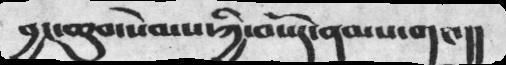བྱང་ཆུབ་སེམས་ཀྱི་བསོད་ནམས་གང་།།
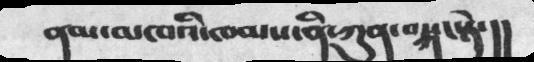ནམ་མཁའི་ཁམས་ནི་ཀུན་བསྐང་སྟེ་།།
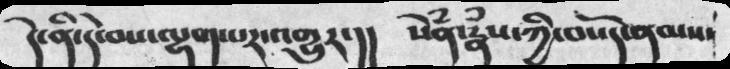དེ་ནི་དེ་བས་ལྷག་པར་འགྱུར་།།    སེཾན་རྣཾས་ཀྱི་བསོད་ནམས་
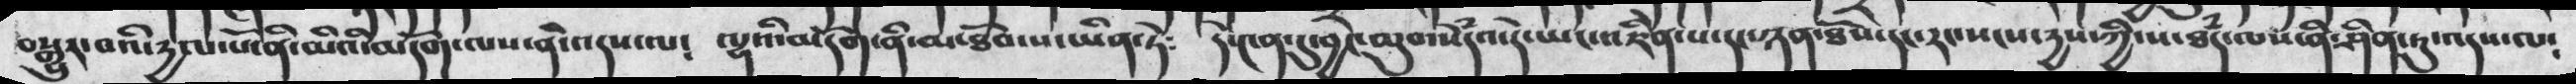བསྒྱུར་བའི་རྒྱལ་པོ་ནི་མིའི་མདོག་ལས་ནི་འདས་ལ༴   ལྷའི་མདོག་ནི་མ་ཐོབ་པ་ཡིན་ཏེ༴  ཏེ་༤ན་དུ་བྱང་ཆུབ་སེདྃཔའ་དེ་ཡང་འཇིེན་པ་དང་ཉན་ཐོས་དང་རང་སངས་རྒྱས་ཀྱི་ས་ཐཾད་ལས་ནི་ཤིན་ཏུ་འདས་ལ༴
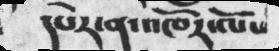དཔེར་ན་འཁོར་ལོས
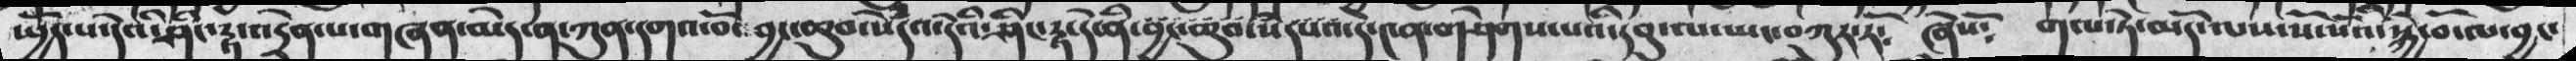སྤྱོད་པ་དེའི་ཤིད་རྟ་འདྲེན་པ་གཞན་མེད་ན་ཀུན་དགའ་བོ་ བྱང་ཆུབ་སེཾདའ་དེའི་ཤིང་རྟ་དེ་ནི་བྱང་ཆུབ་སེདཔའ་དེ་༤ན་གཤེགས་པའི་དབུ་ལ་ཡང་བཀུར་རོ༴  ཞེསོ༴  གལ་ཏེ་མདོ་ལས་སོ་སོའི་སྐྱེ་བོ་ལ་བྱང་
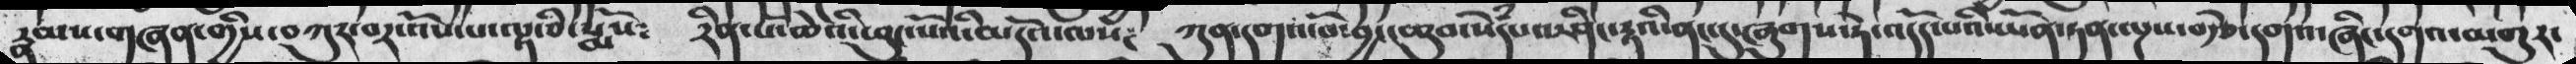རྣམས་གཞན་གྱིས་བཀུར་བར་འོས་པ་ལྟ་ཅི་སྨོས༴  རིན་པོ་ཆེའི་ཕུང་པོའི་མདོ་ལས༴  ཀུན་དགའ་བོ་བྱང་ཆུབ་སེཾདའ་ཤིང་རྟའི་གང་དུ་ཞུགས་ཏེ་འདོད་པའི་ཡོན་ཏན་ལྔས་བརྩེ་དགའ་ཞིང་དགའ་མགུར་
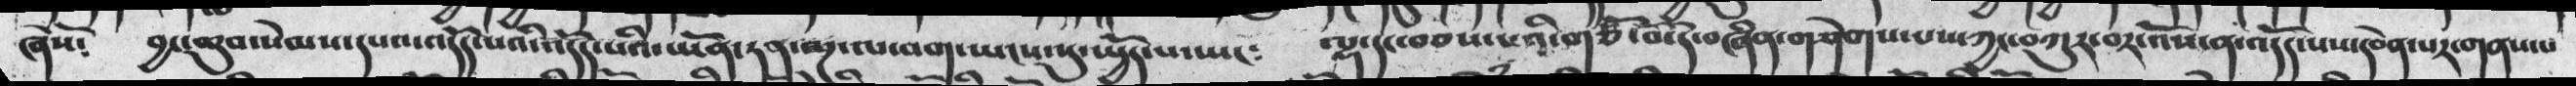ཞེསོ༴  བྱང་ཆུབ་སེམས་དཔའ་འདོད་པའི་འདོད་པའི་ཡོན་ཏན་ལྔ་ལ་བག་ཡངས་སུ་སྤྱོད་པ་ཡང༴  ལྡ་དང་བབས་པའི་གཙོ་བོ་དེ་གཤེགས་པས་ཀྱང་བཀུར་བར་འོས་ན་འདོད་པས་དབེན་པར་གནས་པ
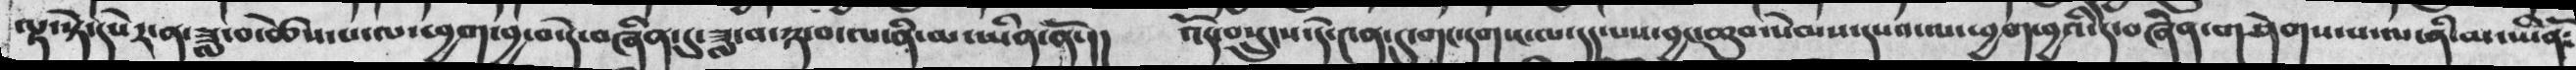ལྟ་སྟེ་དཔེར་ན་ཟླ་བ་ཚེས་པ་ལ་ཕྱག་བྱ་བ་དེ་བཞིན་དུ་ཟླ་བ་ཉ་བ་ལ་ནི་མ་ཡིན་ནོ་།།  འོད་སྲུདས་དེ་༤ན་དུ་གང་དགས་ལ་དད་པས་བྱང་ཆུབ་སེམས་དཔའ་ལ་ཕྱག་བྱའི་དེ་བཞིན་གཤེགས་པ་ལ་ནི་མ་ཡིནོ༴
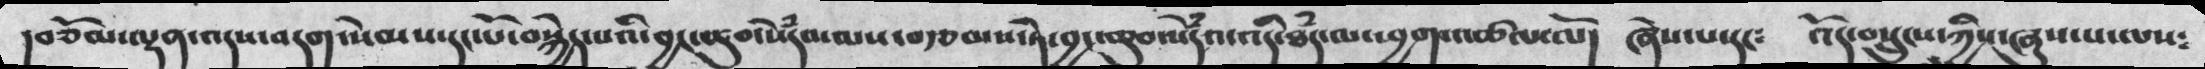། བཅོམ་ལྡན་འདས་བདག་སེམས་དང་པོ་བསྐྱེད་པའི་བྱང་ཆུབ་སེདྃའ་མས་བརྩམས་ཏེ་བྱང་ཆུབ་སེཾས་འདི་ཐཾད་ལ་ཕྱག་འཚལ་ལོ།   ཞེས་པ་དང༴  འོད་བསྲུངས་ཀྱིས་ཞུས་པ་ལས༴
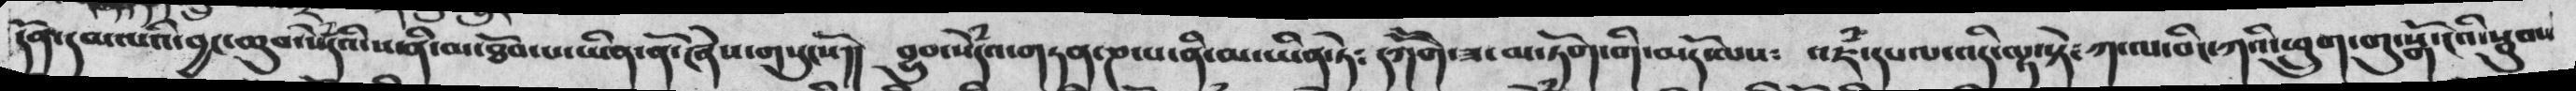དོན་དམ་པའི་བྱང་ཆུབ་སེདའི་ས་ནི་མ་ཐོབ་པ་ཡིན་ནོ་ཞེས་གསུངསོ།།   བྱུབ་སེཾདའ་གཏན་ཎ་པ་ནི་མ་ཡིན་ཏེ༴  དཀོོག་ཟ་མ་ཏོག་གི་མདོ་ལས༴  འཇཾ་དཔལ་འདི་ལྟ་སྟེ༴  ཀ་ལ་བིང་ཀའི་ཕྲུག་གུ་སྒོ་ངའི་སྦུབས་
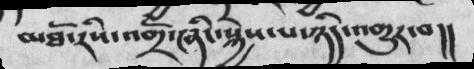མཐོ་རིས་འགྲོ་ཞིང་སྐྱེས་པ་ཉིད་འགྱུར་བ།།
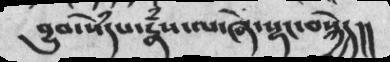བྱུབ་སེཾདཔ་རྣཾས་ལ་ཞེ་སྡང་བསྐྱེད།།
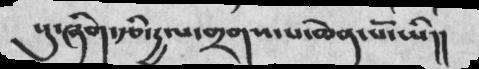སུ་ཞིག་རྩི་དྱལ་གྲགས་པ་ཆེན་པོ་ཡི།།
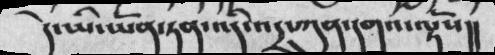དེ་ཡི་ཡོན་ཏན་འདི་འདྲ་ཀུན་དགའ་ལྟསོ།།
